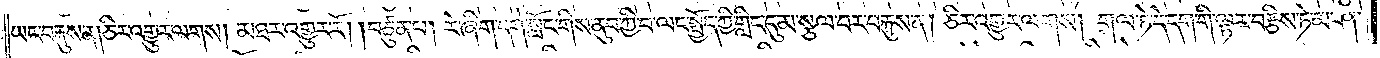ཡང་བརྐུས་ན། ཅིར་འགྱུར་ལགས། མཐར་འགྱུར་རོ། །བཙུན་པ། རེ་ཞིག་དགེ་སློང་གིས་ནུབ་ཀྱི་བ་ལང་སྤྱོད་ཀྱི་གླིང་དུ་མ་སྩལ་བར་བརྐུས་ན། ཅིར་འགྱུར་ལགས། གལ་ཏེ་དེ་དག་གི་ལྟར་བརྩིས་ཏེ་མ་ཤ་
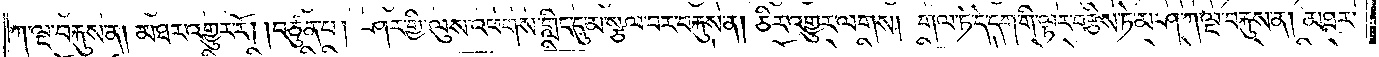ཀ་ལྔ་བརྐུས་ན། མཐར་འགྱུར་རོ། །བཙུན་པ། ཤར་གྱི་ལུས་འཕགས་གླིང་དུ་མ་སྩལ་བར་བརྐུས་ན། ཅིར་འགྱུར་ལགས། གལ་ཏེ་དེ་དག་གི་ལྟར་བརྩིས་ཏེ་མ་ཤ་ཀ་ལྔ་བརྐུས་ན། མཐར་
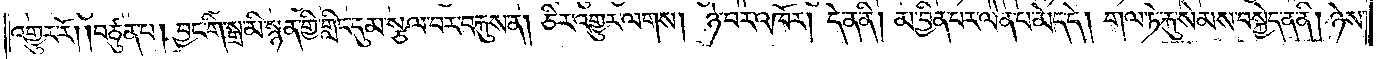འགྱུར་རོ། །བཙུན་པ། བྱང་གི་སྒྲ་མི་སྙན་གྱི་གླིང་དུ་མ་སྩལ་བར་བརྐུས་ན། ཅིར་འགྱུར་ལགས། ཉེ་བར་འཁོར། དེ་ན་ནི། མ་བྱིན་པར་ལེན་པ་མེད་དེ། གལ་ཏེ་རྐུ་སེམས་བསྐྱེད་ན་ནི། ཉེས་
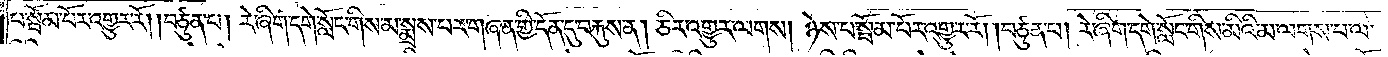པ་སྦོམ་པོར་འགྱུར་རོ། །བཙུན་པ། རེ་ཞིག་དགེ་སློང་གིས་མ་སྨྲས་པར་གཞན་གྱི་དོན་དུ་བརྐུས་ན། ཅིར་འགྱུར་ལགས། ཉེས་པ་སྦོམ་པོར་འགྱུར་རོ། །བཙུན་པ། རེ་ཞིག་དགེ་སློང་གིས་མིའི་མ་ལགས་པ་ལ་
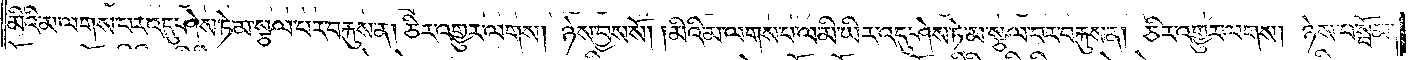མིའི་མ་ལགས་པར་འདུ་ཤེས་ཏེ་མ་སྩལ་བར་བརྐུས་ན། ཅིར་འགྱུར་ལགས། ཉེས་བྱས་སོ། །མིའི་མ་ལགས་པ་ལ་མི་ཡིར་འདུ་ཤེས་ཏེ་མ་སྩལ་བར་བརྐུས་ན། ཅིར་འགྱུར་ལགས། ཉེས་པ་སྦོམ་
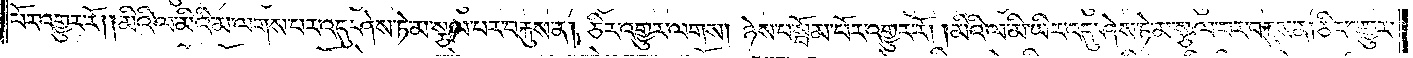པོར་འགྱུར་རོ། །མིའི་ལ་མིའི་མ་ལགས་པར་འདུ་ཤེས་ཏེ་མ་སྩལ་པར་བརྐུས་ན། ཅིར་འགྱུར་ལགས། ཉེས་པ་སྦོམ་པོར་འགྱུར་རོ། །མིའི་ལ་མི་ཡིར་འདུ་ཤེས་ཏེ་མ་སྩལ་བར་བརྐུས་ན། ཅིར་འགྱུར་
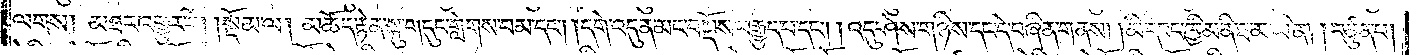ལགས། མཐར་འགྱུར་རོ། །སྡོམ་ལ། མཆོད་རྟེན་སྐུ་གདུང་གླེགས་བམ་དང༌། །དགེ་འདུན་མང་བསྡུས་བརྒྱུད་པ་དང༌། །འདུ་ཤེས་གཉིས་དང་དེ་བཞིན་གནས། །མི་དབང་ཁྱིམ་ནི་ཐ་མ་ཡིན། །བཙུན་པ།
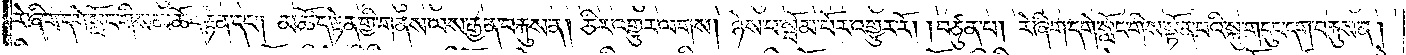རེ་ཞིག་དགེ་སློང་གིས་མཆོད་རྟེན་དང༌། མཆོད་རྟེན་གྱི་གནས་ལས་རྒྱན་བརྐུས་ན། ཅིར་འགྱུར་ལགས། ཉེས་པ་སྦོམ་པོར་འགྱུར་རོ། །བཙུན་པ། རེ་ཞིག་དགེ་སློང་གིས་སྟོན་པའི་སྐུ་གདུང་དག་བརྐུས་ན།
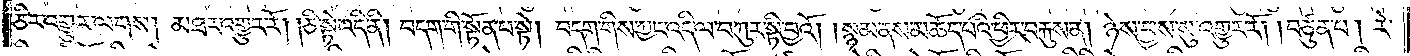ཅིར་འགྱུར་ལགས། མཐར་འགྱུར་རོ། །ཅི་སྟེ་འདི་ནི། བདག་གི་སྟོན་པ་སྟེ། བདག་གིས་ཀྱང་འདི་ལ་བཀུར་སྟི་བྱའོ། །སྙམ་ནས་མཆོད་པའི་ཕྱིར་བརྐུས་ན། ཉེས་བྱས་སུ་འགྱུར་རོ། །བཙུན་པ། རེ་
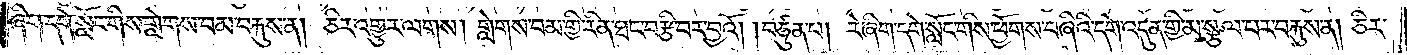ཞིག་དགེ་སློང་གིས་གླེགས་བམ་བརྐུས་ན། ཅིར་འགྱུར་ལགས། གླེགས་བམ་གྱི་རིན་ཐང་བརྩི་བར་བྱའོ། །བཙུན་པ། རེ་ཞིག་དགེ་སློང་གིས་ཕྱོགས་བཞིའི་དགེ་འདུན་གྱི་མ་སྩལ་བར་བརྐུས་ན། ཅིར་
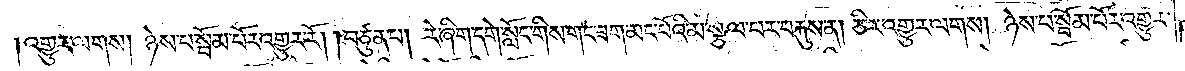།འགྱུར་ལགས། ཉེས་པ་སྦོམ་པོར་འགྱུར་རོ། །བཙུན་པ། རེ་ཞིག་དགེ་སློང་གིས་གང་ཟག་མང་པོའི་མ་སྩལ་པར་བརྐུས་ན། ཅིར་འགྱུར་ལགས། ཉེས་པ་སྦོམ་པོར་འགྱུར་
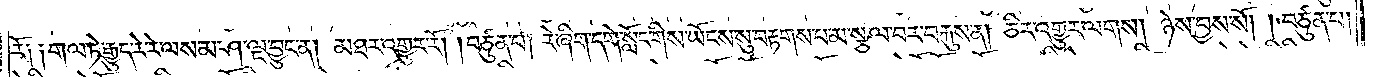རོ༑ ༑གལ་ཏེ་རྒྱུད་རེ་རེ་ལས་མ་ཤ་ལྔ་བྱུང་ན། མཐར་འགྱུར་རོ། །བཙུན་པ། རེ་ཞིག་དགེ་སློང་གིས་ཡོངས་སུ་བརྟགས་པ་མ་སྩལ་བར་བརྐུས་ན། ཅིར་འགྱུར་ལགས། ཉེས་བྱས་སོ། །བཙུན་པ།
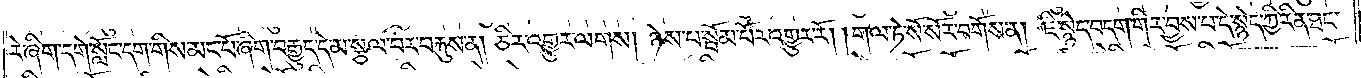རེ་ཞིག་དགེ་སློང་དག་གིས་མང་པོ་ཞིག་བརྒྱུད་དེ་མ་སྩལ་པར་བརྐུས་ན། ཅིར་འགྱུར་ལགས། ཉེས་པ་སྦོམ་པོར་འགྱུར་རོ། །གལ་ཏེ་སོ་སོར་བགོས་ན། ཇི་སྙེད་བདག་གིར་བྱས་པ་དེ་སྙེད་ཀྱི་རིན་ཐང་
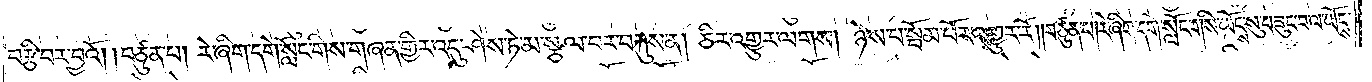བརྩི་བར་བྱའོ། །བཙུན་པ། རེ་ཞིག་དགེ་སློང་གིས་གཞན་གྱིར་འདུ་ཤེས་ཏེ་མ་སྩལ་པར་བརྐུས་ན། ཅིར་འགྱུར་ལགས། ཉེས་པ་སྦོམ་པོར་འགྱུར་རོ༎བཙུན་པ།རེ་ཞིག་དགེ་སློང་གིས་ཡོངས་སུ་བཟུང་བ་ལ་ཡོངས་
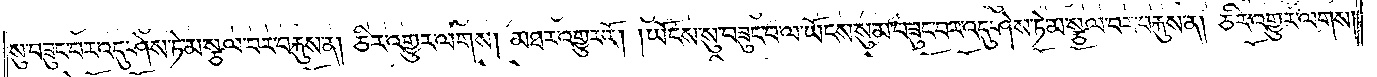སུ་བཟུང་བར་འདུ་ཤེས་ཏེ་མ་སྩལ་བར་བརྐུས་ན། ཅིར་འགྱུར་ལགས། མཐར་འགྱུར་རོ། །ཡོངས་སུ་བཟུང་བ་ལ་ཡོངས་སུ་མ་བཟུང་བར་འདུ་ཤེས་ཏེ་མ་སྩལ་བར་བརྐུས་ན། ཅིར་འགྱུར་ལགས།
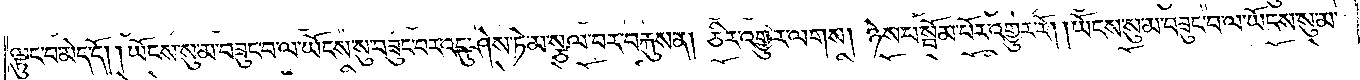ལྟུང་བ་མེད་དོ། །ཡོངས་སུ་མ་བཟུང་བ་ལ་ཡོངས་སུ་བཟུང་བར་འདུ་ཤེས་ཏེ་མ་སྩལ་བར་བརྐུས་ན། ཅིར་འགྱུར་ལགས། ཉེས་པ་སྦོམ་པོར་འགྱུར་རོ། །ཡོངས་སུ་མ་བཟུང་བ་ལ་ཡོངས་སུ་མ་
